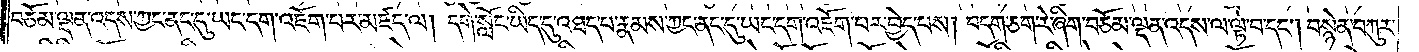བཅོམ་ལྡན་འདས་ཀྱང་ནང་དུ་ཡང་དག་འཇོག་པར་མཛད་ལ། དགེ་སློང་ཡིད་དུ་འཐད་པ་རྣམས་ཀྱང་ནང་དུ་ཡང་དག་འཇོག་པར་བྱེད་པས། བདག་ཅག་རེ་ཞིག་བཅོམ་ལྡན་འདས་ལ་ལྟ་བ་དང༌། བསྙེན་བཀུར་
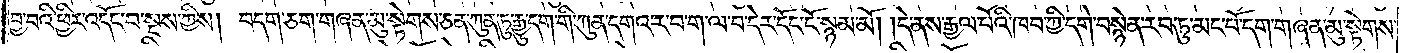བྱ་བའི་ཕྱིར་འདོང་བ་སྔས་ཀྱིས། བདག་ཅག་གཞན་མུ་སྟེགས་ཅན་ཀུན་ཏུ་རྒྱུ་དག་གི་ཀུན་དགའ་ར་བ་ག་ལ་བ་དེར་དོང་ངོ་སྙམ་མོ། །དེ་ནས་རྒྱལ་པོའི་ཁབ་ཀྱི་དགེ་བསྙེན་རབ་ཏུ་མང་པོ་དག་གཞན་མུ་སྟེགས་
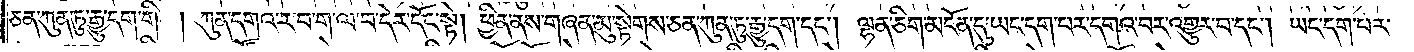ཅན་ཀུན་ཏུ་རྒྱུ་དག་གི། ཀུན་དགའ་ར་བ་ག་ལ་བ་དེར་དོང་སྟེ། ཕྱིན་ནས་གཞན་མུ་སྟེགས་ཅན་ཀུན་ཏུ་རྒྱུ་དག་དང༌། ལྷན་ཅིག་མངོན་དུ་ཡང་དག་པར་དགའ་བར་འགྱུར་བ་དང༌། ཡང་དག་པར་
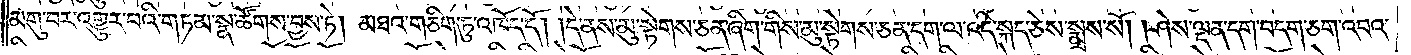མགུ་བར་འགྱུར་བའི་གཏམ་སྣ་ཚོགས་བྱས་ཏེ། མཐའ་གཅིག་ཏུ་འཁོད་དོ། །དེ་ནས་མུ་སྟེགས་ཅན་ཞིག་གིས་མུ་སྟེགས་ཅན་དག་ལ་འདི་སྐད་ཅེས་སྨྲས་སོ། །ཤེས་ལྡན་དག་བདག་ཅག་འབའ་
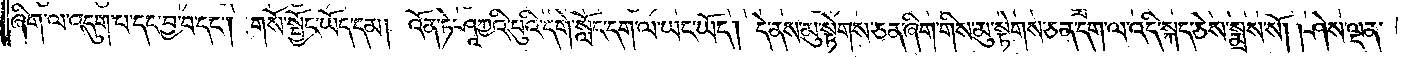ཞིག་ལ་འདུག་པ་དང་བྱ་བ་དང༌། གསོ་སྦྱོང་ཡོད་དམ། འོན་ཏེ་ཤཱཀྱའི་པུའི་དགེ་སློང་དག་ལ་ཡང་ཡོད། དེ་ནས་མུ་སྟེགས་ཅན་ཞིག་གིས་མུ་སྟེགས་ཅན་དག་ལ་འདི་སྐད་ཅེས་སྨྲས་སོ། །ཤེས་ལྡན་
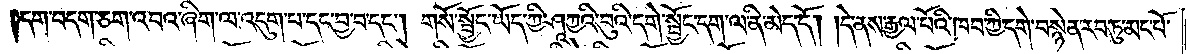དག་བདག་ཅག་འབའ་ཞིག་ལ་འདུག་པ་དང་བྱ་བ་དང༌། གསོ་སྦྱོང་ཡོད་ཀྱི་ཤཱཀྱའི་བུའི་དགེ་སྦྱོང་དག་ལ་ནི་མེད་དོ། །དེ་ནས་རྒྱལ་པོའི་ཁབ་ཀྱི་དགེ་བསྙེན་རབ་ཏུ་མང་པོ་
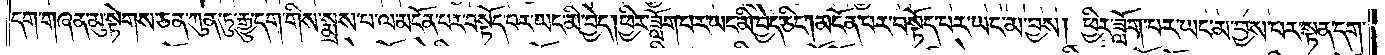དག་གཞན་མུ་སྟེགས་ཅན་ཀུན་ཏུ་རྒྱུ་དག་གིས་སྨྲས་པ་ལ་མངོན་པར་བསྟོད་པར་ཡང་མི་བྱེད། ཕྱིར་ཟློག་པར་ཡང་མི་བྱེད་ཅིང༌། མངོན་པར་བསྟོད་པར་ཡང་མ་བྱས། ཕྱིར་ཟློག་པར་ཡང་མ་བྱས་པར་སྟན་དག་
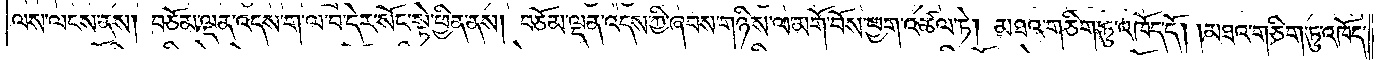ལས་ལངས་ནས། བཅོམ་ལྡན་འདས་ག་ལ་བ་དེར་སོང་སྟེ་ཕྱིན་ནས། བཅོམ་ལྡན་འདས་ཀྱི་ཞབས་གཉིས་ལ་མགོ་བོས་ཕྱག་འཚལ་ཏེ། མཐའ་གཅིག་ཏུ་འཁོད་དོ། །མཐའ་གཅིག་ཏུ་འཁོད་
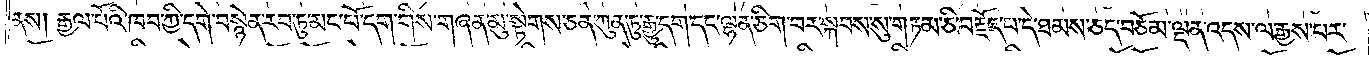ནས། རྒྱལ་པོའི་ཁབ་ཀྱི་དགེ་བསྙེན་རབ་ཏུ་མང་པོ་དག་གིས་གཞན་མུ་སྟེགས་ཅན་ཀུན་ཏུ་རྒྱུ་དག་དང་ལྷན་ཅིག་བར་སྐབས་སུ་གཏམ་ཅི་བརྗོད་པ་དེ་ཐམས་ཅད་བཅོམ་ལྡན་འདས་ལ་རྒྱས་པར་
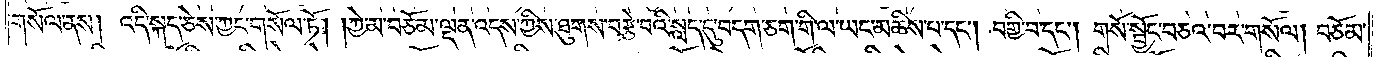གསོལ་ནས། འདི་སྐད་ཅེས་ཀྱང་གསོལ་ཏོ། །ཀྱེ་མ་བཅོམ་ལྡན་འདས་ཀྱིས་ཐུགས་བརྩེ་བའི་སླད་དུ་བདག་ཅག་གི་ལ་ཡང་མཆིས་པ་དང༌། བགྱི་བ་དང༌། གསོ་སྦྱོང་བཅའ་བར་གསོལ། བཅོམ་
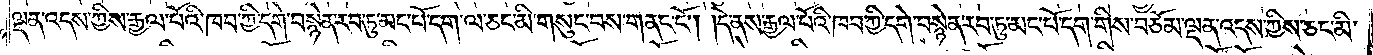ལྡན་འདས་ཀྱིས་རྒྱལ་པོའི་ཁབ་ཀྱི་དགེ་བསྙེན་རབ་ཏུ་མང་པོ་དག་ལ་ཅང་མི་གསུང་བས་གནང་ངོ༌། །དེ་ནས་རྒྱལ་པོའི་ཁབ་ཀྱི་དགེ་བསྙེན་རབ་ཏུ་མང་པོ་དག་གིས་བཅོམ་ལྡན་འདས་ཀྱིས་ཅང་མི་
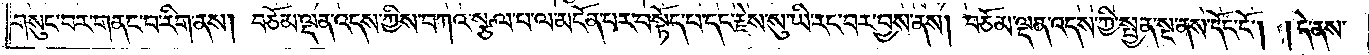གསུང་བར་གནང་བ་རིག་ནས། བཅོམ་ལྡན་འདས་ཀྱིས་བཀའ་སྩལ་པ་ལ་མངོན་པར་བསྟོད་པ་དང་རྗེས་སུ་ཡི་རང་བར་བྱས་ནས། བཅོམ་ལྡན་འདས་ཀྱི་སྤྱན་སྔ་ནས་དོང་ངོ༌། །དེ་ནས་
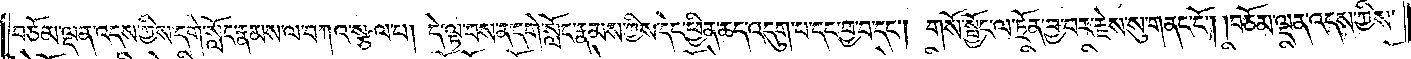བཅོམ་ལྡན་འདས་ཀྱིས་དགེ་སློང་རྣམས་ལ་བཀའ་སྩལ་པ། དེ་ལྟ་བས་ན་དགེ་སློང་རྣམས་ཀྱིས་དེང་ཕྱིན་ཆད་འདུག་པ་དང་བྱ་བ་དང༌། གསོ་སྦྱོང་ལ་ཏྲོན་བྱ་བར་རྗེས་སུ་གནང་ངོ༌། །བཅོམ་ལྡན་འདས་ཀྱིས་
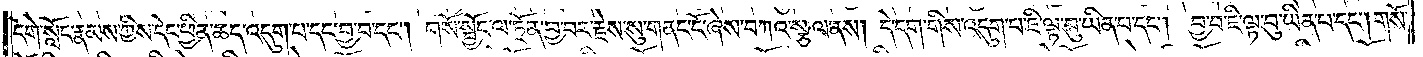དགེ་སློང་རྣམས་ཀྱིས་དང་ཕྱིན་ཆད་འདུག་པ་དང་བྱ་བ་དང༌། གསོ་སྦྱོང་ལ་ཏྲོན་བྱ་བར་རྗེས་སུ་གནང་ངོ་ཞེས་བཀའ་སྩལ་ནས། དེ་དག་གིས་འདུག་པ་ཇི་ལྟ་བུ་ཡིན་པ་དང༌། བྱ་བ་ཇི་ལྟ་བུ་ཡིན་པ་དང༌། གསོ་
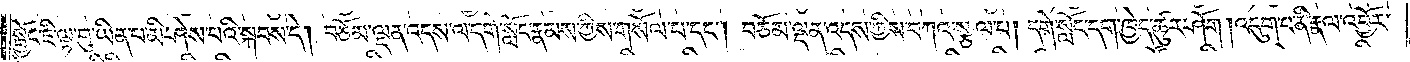སྦྱོང་ཇི་ལྟ་བུ་ཡིན་པ་མི་ཤེས་པའི་སྐབས་དེ། བཅོམ་ལྡན་འདས་ལ་དགེ་སློང་རྣམས་ཀྱིས་གསོལ་པ་དང༌། བཅོམ་ལྡན་འདས་ཀྱིས་བཀའ་སྩལ་བ། དགེ་སློང་དག་ཁྱེད་ཚུར་ཤོག །འདུག་པ་ནི་རྣལ་འབྱོར་
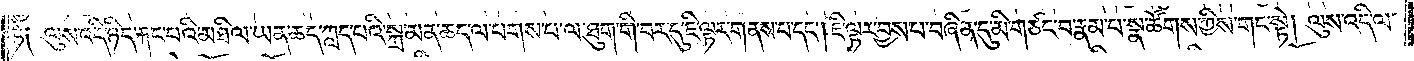ཏེ༑ ལུས་འདི་ཉིད་རྐང་པའི་མཐིལ་ཡན་ཆད་ཀླད་པའི་སྐྲ་མན་ཆད་ལ་པགས་པ་ལ་ཐུག་གི་བར་དུ་ཇི་ལྟར་གནས་པ་དང༌། ཇི་ལྟར་བྱས་པ་བཞིན་དུ་མི་གཙང་བ་རྣམ་པ་སྣ་ཚོགས་ཀྱིས་གང་སྟེ། ལུས་འདི་ལ་
